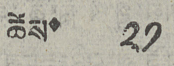ཚེས་ ༢༡
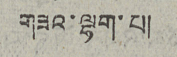གཟའ་ལྷག་པ།
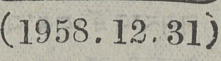(1958. 12. 31)
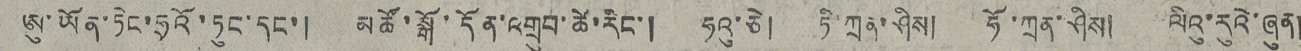ཨུ་ཡོན་ཏེང་ཧྲའོ་ཏུང་དང་། མཚོ་སྒོ་དོན་འགྲུབ་ཚེ་རིང་། ཧུའུ་ཅེ། ཏི་ཀྲན་ཤིས། ཧོ་ཀྲན་ཤིས། ལིའུ་རུའེ་ཞུན།
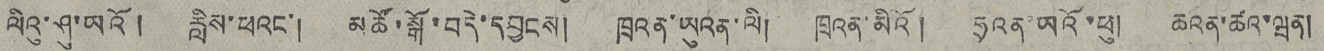ལིའུ་ཤུ་ཡའོ། རླིས་ཕའང་། མཚོ་སྒོ་བདེ་དབྱངས། ཁྲུའན་ཡུའན་ལི། ཁྲུའན་མིའོ། ཧྲའན་ཡའོ་ཕུ། ཆའན་ཚའ་ཝན།
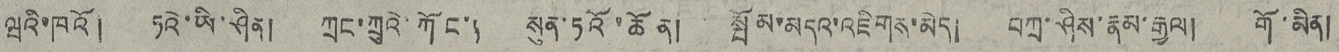ཝའི་ཁའོ། ཏའེ་ཡི་ཤིན། ཀྲང་ཀྲུའེ་ཀོང་། སུན་ཏའོ་ཆོན། སྤོམ་མདའ་འཇིགས་མེད། བཀྲ་ཤིས་རྣམ་རྒྱལ། གོ་མིན།
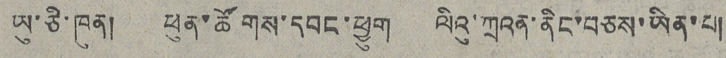ཡུ་ཅི་ཁུན། ཕུན་ཚོགས་དབང་ཕྱུག ལིའུ་ཀྲའན་ནིང་བཅས་ཡིན་པ།
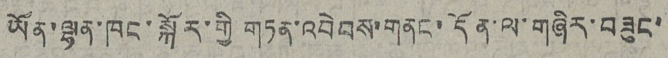ཡོན་ལྷན་ཁང་སྐོར་གྱི གཏན་འབེབས་གནང་དོན་ལ་གཞིར་བཟུང་
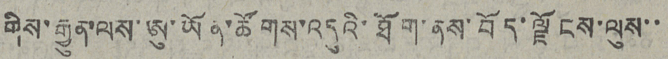གིས་རྒྱུན་ལས་ཨུ་ཡོན་ཚོགས་འདུའི་ཐོག་ནས་བོད་ལྗོངས་ལུས་་
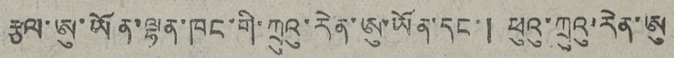རྩལ་ཨུ་ཡོན་ལྷན་ཁང་གི་ཀྲུའུ་རེན་ཨུ་ཡོན་དང་། ཕུའུ་ཀྲུའུ་རེན་ཨུ་
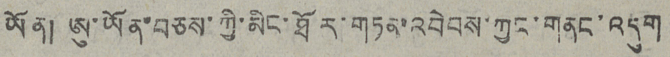ཡོན། ཨུ་ཡོན་བཅས་ཀྱི་མིང་ཐོར་གཏན་འབེབས་ཀྱང་གནང་འདུག
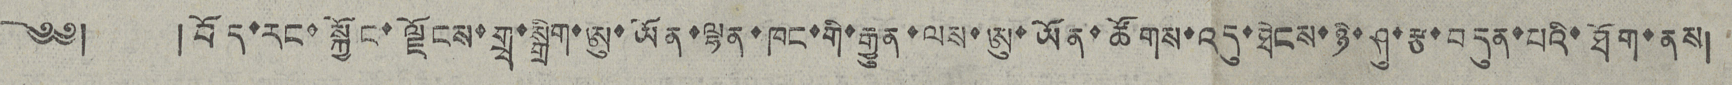༄༅། །བོད་རང་སྐྱོང་ལྗོངས་གྲྭ་སྒྲིག་ཨུ་ཡོན་ལྷན་ཁང་གི་རྒྱུན་ལས་ཨུ་ཡོན་ཚོགས་འདུ་ཐེངས་ཉི་ཤུ་རྩ་བདུན་པའི་ཐོག་ནས།
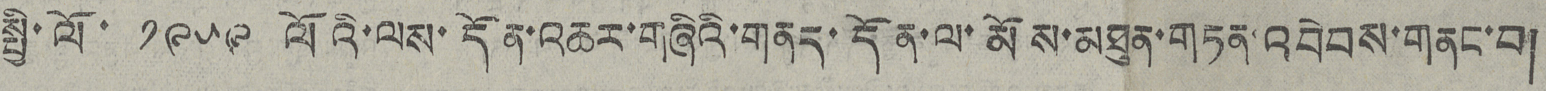སྤྱི་ལོ་ ༡༩༥༩ ལོའི་ལས་དོན་འཆར་གཞིའི་གནད་དོན་ལ་མོས་མཐུན་གཏན་འབེབས་གནང་བ།
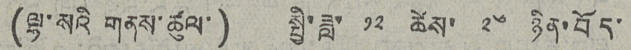( ལྷ་སའི་གནས་ཚུལ་ )  སྤྱི་ཟླ་ ༡༢ ཚེས་ ༢༥ ཉིན་བོད་
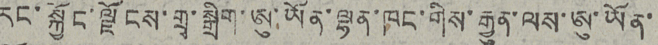རང་སྐྱོང་ལྗོངས་གྲྭ་སྒྲིག་ཨུ་ཡོན་ལྷན་ཁང་གིས་རྒྱུན་ལས་ཨུ་ཡོན་
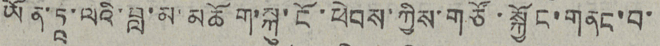ཡོན་ཏཱ་ལའི་བླ་མ་མཆོག་སྐུ་ངོ་ཕེབས་ཀྱིས་གཙོ་སྐྱོང་གནང་བ་
